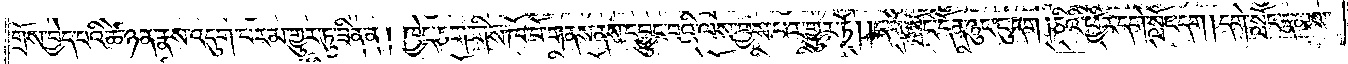གྲོས་བྱེད་པའི་ཚེ་ཉན་རྣས་འདུག་པར་མ་གྱུར་ཏུ་ཟིན་ན། ཁྱེད་ཅག་གིས་ཁོ་བོ་གནས་ནས་དབྱུང་བའི་ལས་བྱས་པར་གྱུར་ཏོ། །དགེ་སློང་དོན་ཉུང་ངུ་དག །ཅིའི་ཕྱིར་དགེ་སློང་དག །དགེ་སློང་རྣམས་
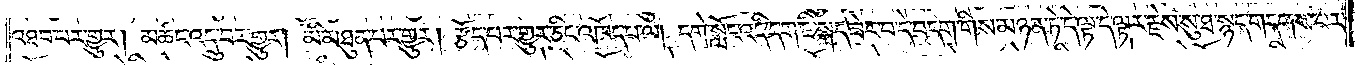འཐབ་པར་གྱུར། མཚང་འདྲུ་བར་གྱུར། མི་མཐུན་པར་གྱུར། རྩོད་པར་གྱུར་ཅིང་འཁོད་པ་ལ། དགེ་སློང་འདི་དག་ཇི་སྐད་ཟེར་བ་དེ་བདག་གིས་མཉན་ཏེ་དེ་ལྟ་དེ་ལྟར་རྗེས་སུ་ཐ་སྙད་གདགས་པར་
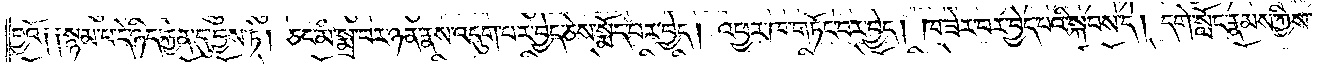བྱའོ༑ ༑སྙམ་པ་དེ་ཉིད་རྐྱེན་དུ་བྱས་ཏེ། ཅང་མི་སྨྲ་བར་ཉན་རྣས་འདུག་པར་བྱེད་ཅེས་སྨོད་པར་བྱེད། འཕྱར་ཁ་གཏོང་བར་བྱེད། ཁ་ཟེར་བར་བྱེད་པའི་སྐབས་དེ། དགེ་སློང་རྣམས་ཀྱིས་
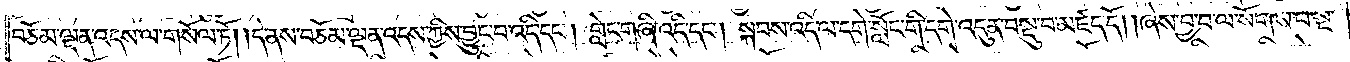བཅོམ་ལྡན་འདས་ལ་གསོལ་ཏོ། །དེ་ནས་བཅོམ་ལྡན་འདས་ཀྱིས་བྱུང་བ་འདི་དང༌། གླེང་གཞི་འདི་དང༌། སྐབས་འདི་ལ་དགེ་སློང་གི་དགེ་འདུན་བསྡུ་བ་མཛད་དོ། །ཞེས་བྱ་བ་ལ་སོགས་པ་སྔ་
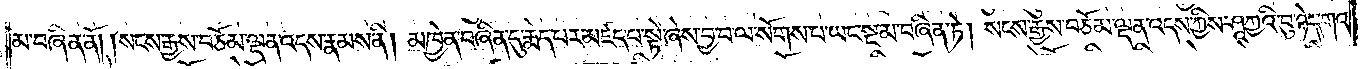མ་བཞིན་ནོ། །སངས་རྒྱས་བཅོམ་ལྡན་འདས་རྣམས་ནི། མཁྱེན་བཞིན་དུ་རྨེད་པར་མཛད་པ་སྟེ་ཞེས་བྱ་བ་ལ་སོགས་པ་ཡང་སྔ་མ་བཞིན་ཏེ། སངས་རྒྱས་བཅོམ་ལྡན་འདས་ཀྱིས་ཤཱཀྱའི་བུ་ཉེ་དགའ་
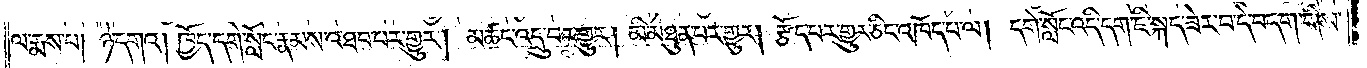ལ་རྨས་པ། ཉེ་དགའ།ཁྱོད་དགེ་སློང་རྣམས་འཐབ་པར་གྱུར། མཚང་འདྲུ་བར་གྱུར། མི་མཐུན་པར་གྱུར། རྩོད་པར་གྱུར་ཅིང་འཁོད་པ་ལ། དགེ་སློང་འདི་དག་ཇི་སྐད་ཟེར་བ་དེ་བདག་གིས་
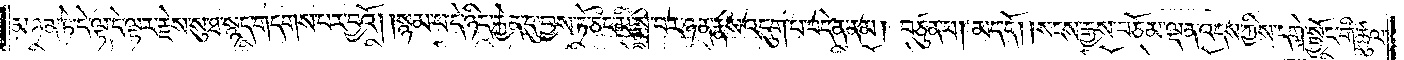མཉན་ཏེ་དེ་ལྟ་དེ་ལྟར་རྗེས་སུ་སྙད་གདགས་པར་བྱའོ། །སྙམ་པ་དེ་ཉིད་རྐྱེན་དུ་བྱས་ཏེ་ཅང་མི་སྨྲ་བར་ཉན་རྣས་འདུག་པ་བདེན་ནམ། བཙུན་པ། མད་དོ། །སངས་རྒྱས་བཅོམ་ལྡན་འདས་ཀྱིས་དགེ་སྦྱོང་གི་ཚུལ་
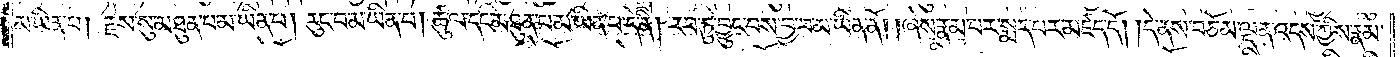མ་ཡིན་པ། རྗེས་སུ་མཐུན་པ་མ་ཡིན་པ། རུང་བ་མ་ཡིན་པ། ཚུལ་དང་མཐུན་པ་མ་ཡིན་པ་དེ་ནི། རབ་ཏུ་བྱུང་བས་བྱ་བ་མ་ཡིན་ནོ། །ཞེས་རྣམ་པར་སྨད་པར་མཛད་དོ། །དེ་ནས་བཅོམ་ལྡན་འདས་ཀྱིས་རྣམ་
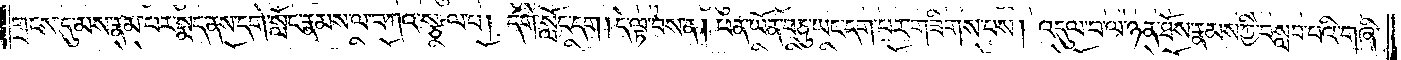གྲངས་དུ་མས་རྣམ་པར་སྨད་ནས་དགེ་སློང་རྣམས་ལ་བཀའ་སྩལ་པ། དགེ་སློང་དག །དེ་ལྟ་བས་ན། ཕན་ཡོན་བཅུ་ཡང་དག་པར་གཟིགས་པས། འདུལ་བ་ལ་ཉན་ཐོས་རྣམས་ཀྱི་བསླབ་པའི་གཞི་
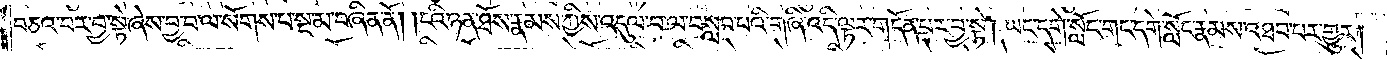བཅའ་བར་བྱ་སྟེ་ཞེས་བྱ་བ་ལ་སོགས་པ་སྔ་མ་བཞིན་ནོ། །ངའི་ཉན་ཐོས་རྣམས་ཀྱིས་འདུལ་བ་ལ་བསླབ་པའི་གཞི་འདི་ལྟར་གདོན་པར་བྱ་སྟེ། ཡང་དགེ་སློང་གང་དགེ་སློང་རྣམས་འཐབ་པར་གྱུར།
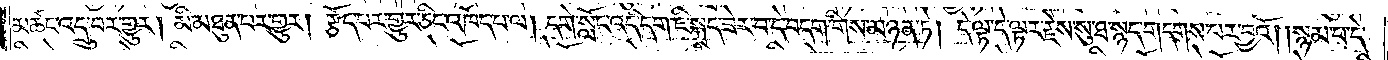མཚང་འདྲུ་བར་གྱུར། མི་མཐུན་པར་གྱུར། རྩོད་པར་གྱུར་ཅིང་འཁོད་པ་ལ། དགེ་སློང་འདི་དག་ཇི་སྐད་ཟེར་བ་དེ་བདག་གིས་མཉན་ཏེ། དེ་ལྟ་དེ་ལྟར་རྗེས་སུ་ཐ་སྙད་གདགས་པར་བྱའོ། །སྙམ་པ་དེ་
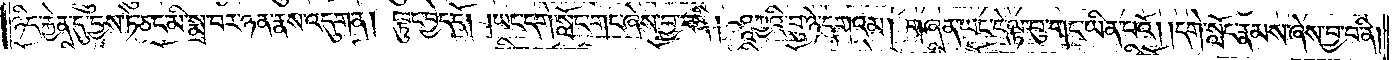ཉིད་རྐྱེན་དུ་བྱས་ཏེ་ཅང་མི་སྨྲ་བར་ཉན་རྣས་འདུག་ན། ལྟུང་བྱེད་དོ། །ཡང་དགེ་སློང་གང་ཞེས་བྱ་བ་ནི། ཤཱཀྱའི་བུ་ཉེ་དགའམ། གཞན་ཡང་དེ་ལྟ་བུ་གང་ཡིན་པའོ། །དགེ་སློང་རྣམས་ཞེས་བྱ་བ་ནི།
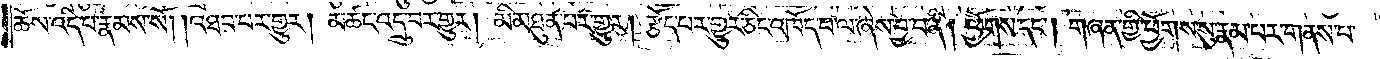ཆོས་འདི་བ་རྣམས་སོ། །འཐབ་པར་གྱུར། མཚང་འདྲུ་བར་གྱུར། མི་མཐུན་པར་གྱུར། རྩོད་པར་གྱུར་ཅིང་འཁོད་པ་ལ་ཞེས་བྱ་བ་ནི། ཕྱོགས་དང༌། གཞན་གྱི་ཕྱོགས་སུ་རྣམ་པར་གནས་པ་
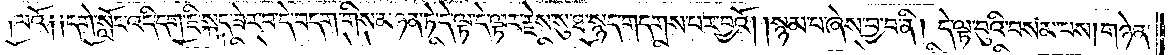ལའོ༑ ༑དགེ་སློང་འདི་དག་ཇི་སྐད་ཟེར་བ་དེ་བདག་གིས་མཉན་ཏེ་དེ་ལྟ་དེ་ལྟར་རྗེས་སུ་ཐ་སྙད་གདགས་པར་བྱའོ། །སྙམ་པ་ཞེས་བྱ་བ་ནི། དེ་ལྟ་བུའི་བསམ་པས། གཉེན་
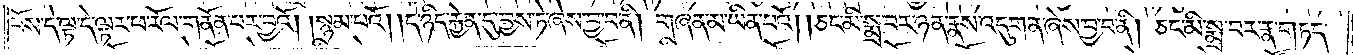པོས་དེ་ལྟ་དེ་ལྟར་ཕ་རོལ་གནོན་པར་བྱའོ། །སྙམ་པའོ། །དེ་ཉིད་རྐྱེན་དུ་བྱས་ཏེ་ཞེས་བྱ་བ་ནི། གཞན་མ་ཡིན་པའོ། །ཅང་མི་སྨྲ་བར་ཉན་རྣས་འདུག་ན་ཞེས་བྱ་བ་ནི། ཅང་མི་སྨྲ་བར་རྣ་གཏད་
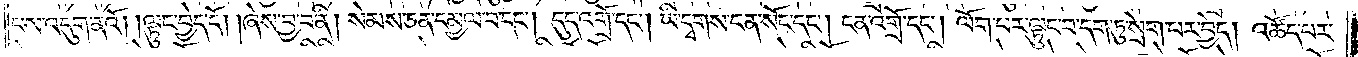པས་འདུག་ནའོ། །ལྟུང་བྱེད་དོ། །ཞེས་བྱ་བ་ནི། སེམས་ཅན་དམྱལ་བ་དང༌། དུད་འགྲོ་དང༌། ཡི་དྭགས་ངན་སོང་དང༌། ངན་འགྲོ་དང༌། ལོག་པར་ལྟུང་བ་དག་ཏུ་སྲེག་པར་བྱེད། འཚོད་པར་
